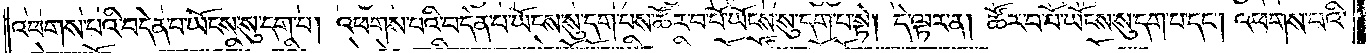འཕགས་པའི་བདེན་པ་ཡོངས་སུ་དག་པ། འཕགས་པའི་བདེན་པ་ཡོངས་སུ་དག་པས་ཚོར་བ་པོ་ཡོངས་སུ་དག་པ་སྟེ། དེ་ལྟར་ན། ཚོར་བ་པོ་ཡོངས་སུ་དག་པ་དང༌། འཕགས་པའི་
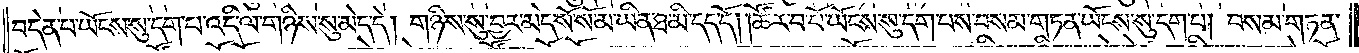བདེན་པ་ཡོངས་སུ་དག་པ་འདི་ལ་གཉིས་སུ་མེད་དེ། གཉིས་སུ་བྱར་མེད་སོ་སོ་མ་ཡིན་ཐ་མི་དད་དོ། །ཚོར་བ་པོ་ཡོངས་སུ་དག་པས་བསམ་གཏན་ཡོངས་སུ་དག་པ། བསམ་གཏན་
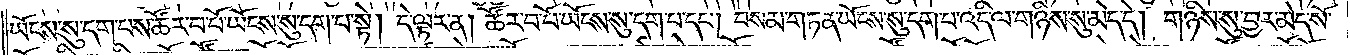ཡོངས་སུ་དག་པས་ཚོར་བ་པོ་ཡོངས་སུ་དག་པ་སྟེ། དེ་ལྟར་ན། ཚོར་བ་པོ་ཡོངས་སུ་དག་པ་དང༌། བསམ་གཏན་ཡོངས་སུ་དག་པ་འདི་ལ་གཉིས་སུ་མེད་དེ། གཉིས་སུ་བྱར་མེད་སོ་
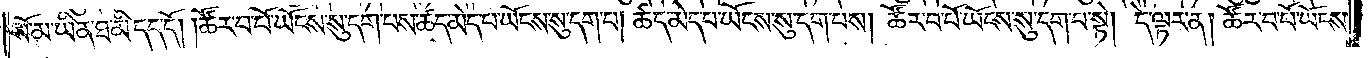སོ་མ་ཡིན་ཐ་མི་དད་དོ། །ཚོར་བ་པོ་ཡོངས་སུ་དག་པས་ཚད་མེད་པ་ཡོངས་སུ་དག་པ། ཚད་མེད་པ་ཡོངས་སུ་དག་པས། ཚོར་བ་པོ་ཡོངས་སུ་དག་པ་སྟེ། དེ་ལྟར་ན། ཚོར་བ་པོ་ཡོངས་
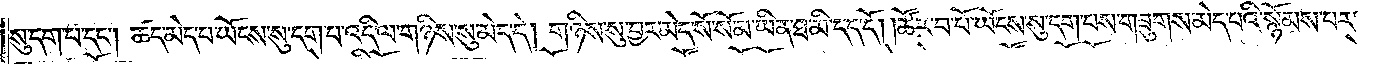སུ་དག་པ་དང༌། ཚད་མེད་པ་ཡོངས་སུ་དག་པ་འདི་ལ་གཉིས་སུ་མེད་དེ། གཉིས་སུ་བྱར་མེད་སོ་སོ་མ་ཡིན་ཐ་མི་དད་དོ། །ཚོར་བ་པོ་ཡོངས་སུ་དག་པས་གཟུགས་མེད་པའི་སྙོམས་པར་
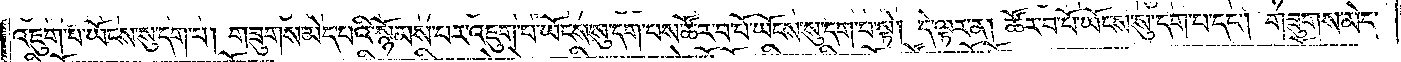འཇུག་པ་ཡོངས་སུ་དག་པ། གཟུགས་མེད་པའི་སྙོམས་པར་འཇུག་པ་ཡོངས་སུ་དག་པས་ཚོར་བ་པོ་ཡོངས་སུ་དག་པ་སྟེ། དེ་ལྟར་ན། ཚོར་བ་པོ་ཡོངས་སུ་དག་པ་དང༌། གཟུགས་མེད་
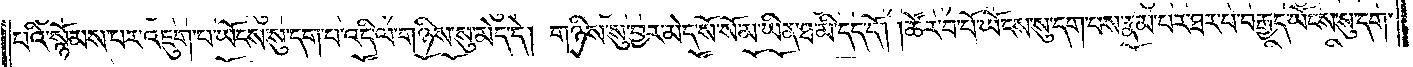པའི་སྙོམས་པར་འཇུག་པ་ཡོངས་སུ་དག་པ་འདི་ལ་གཉིས་སུ་མེད་དེ། གཉིས་སུ་བྱར་མེད་སོ་སོ་མ་ཡིན་ཐ་མི་དད་དོ། །ཚོར་བ་པོ་ཡོངས་སུ་དག་པས་རྣམ་པར་ཐར་པ་བརྒྱད་ཡོངས་སུ་དག་
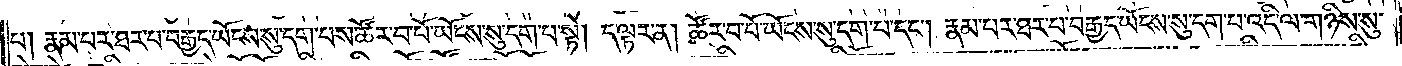པ། རྣམ་པར་ཐར་པ་བརྒྱད་ཡོངས་སུ་དག་པས་ཚོར་བ་པོ་ཡོངས་སུ་དག་པ་སྟེ། དེ་ལྟར་ན། ཚོར་བ་པོ་ཡོངས་སུ་དག་པ་དང༌། རྣམ་པར་ཐར་པ་བརྒྱད་ཡོངས་སུ་དག་པ་འདི་ལ་གཉིས་སུ་
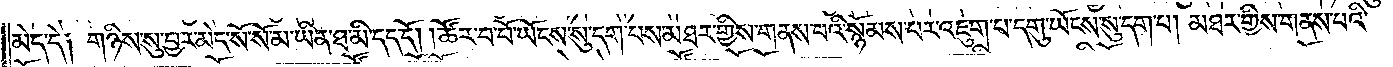མེད་དེ༑ གཉིས་སུ་བྱར་མེད་སོ་སོ་མ་ཡིན་ཐ་མི་དད་དོ། །ཚོར་བ་པོ་ཡོངས་སུ་དག་པས་མཐར་གྱིས་གནས་པའི་སྙོམས་པར་འཇུག་པ་དགུ་ཡོངས་སུ་དག་པ། མཐར་གྱིས་གནས་པའི་
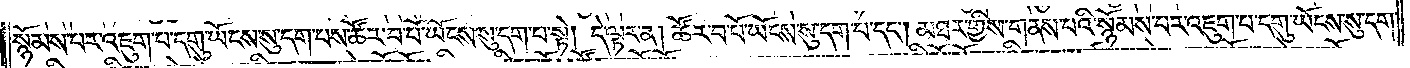སྙོམས་པར་འཇུག་པ་དགུ་ཡོངས་སུ་དག་པས་ཚོར་བ་པོ་ཡོངས་སུ་དག་པ་སྟེ། དེ་ལྟར་ན། ཚོར་བ་པོ་ཡོངས་སུ་དག་པ་དང༌། མཐར་གྱིས་གནས་པའི་སྙོམས་པར་འཇུག་པ་དགུ་ཡོངས་སུ་དག་
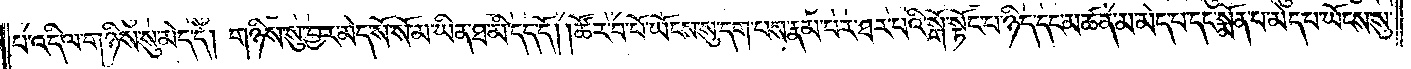པ་འདི་ལ་གཉིས་སུ་མེད་དེ། གཉིས་སུ་བྱར་མེད་སོ་སོ་མ་ཡིན་ཐ་མི་དད་དོ། །ཚོར་བ་པོ་ཡོངས་སུ་དག་པས་རྣམ་པར་ཐར་པའི་སྒོ་སྟོང་པ་ཉིད་དང་མཚན་མ་མེད་པ་དང་སྨོན་པ་མེད་པ་ཡོངས་སུ་
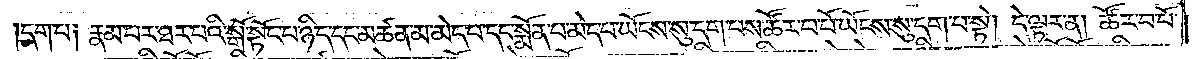དག་པ༑ རྣམ་པར་ཐར་པའི་སྒོ་སྟོང་པ་ཉིད་དང་མཚན་མ་མེད་པ་དང་སྨོན་པ་མེད་པ་ཡོངས་སུ་དག་པས་ཚོར་བ་པོ་ཡོངས་སུ་དག་པ་སྟེ། དེ་ལྟར་ན། ཚོར་བ་པོ་
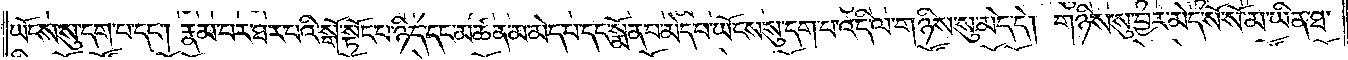ཡོངས་སུ་དག་པ་དང༌། རྣམ་པར་ཐར་པའི་སྒོ་སྟོང་པ་ཉིད་དང་མཚན་མ་མེད་པ་དང་སྨོན་པ་མེད་པ་ཡོངས་སུ་དག་པ་འདི་ལ་གཉིས་སུ་མེད་དེ། གཉིས་སུ་བྱར་མེད་སོ་སོ་མ་ཡིན་ཐ་
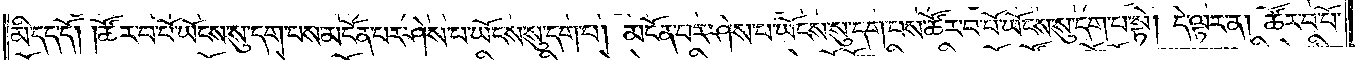མི་དད་དོ། །ཚོར་བ་པོ་ཡོངས་སུ་དག་པས་མངོན་པར་ཤེས་པ་ཡོངས་སུ་དག་པ། མངོན་པར་ཤེས་པ་ཡོངས་སུ་དག་པས་ཚོར་བ་པོ་ཡོངས་སུ་དག་པ་སྟེ། དེ་ལྟར་ན། ཚོར་བ་པོ་
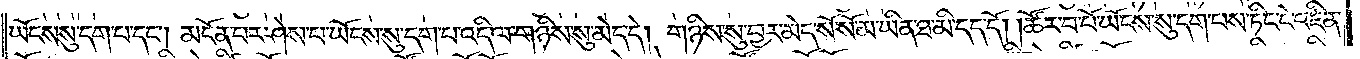ཡོངས་སུ་དག་པ་དང༌། མངོན་པར་ཤེས་པ་ཡོངས་སུ་དག་པ་འདི་ལ་གཉིས་སུ་མེད་དེ། གཉིས་སུ་བྱར་མེད་སོ་སོ་མ་ཡིན་ཐ་མི་དད་དོ། །ཚོར་བ་པོ་ཡོངས་སུ་དག་པས་ཏིང་ངེ་འཛིན་
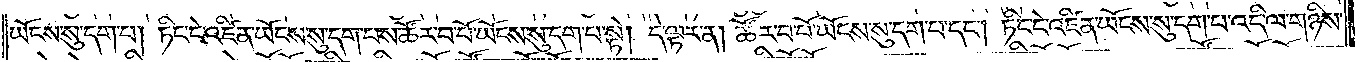ཡོངས་སུ་དག་པ། ཏིང་ངེ་འཛིན་ཡོངས་སུ་དག་པས་ཚོར་བ་པོ་ཡོངས་སུ་དག་པ་སྟེ། དེ་ལྟར་ན། ཚོར་བ་པོ་ཡོངས་སུ་དག་པ་དང༌། ཏིང་ངེ་འཛིན་ཡོངས་སུ་དག་པ་འདི་ལ་གཉིས་
